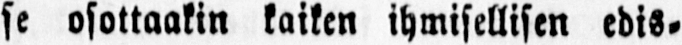se osottaakin kaiken ihmeellisen edis-
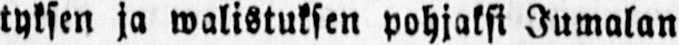tyksen ja walistuksen pohjaksi Jumalan
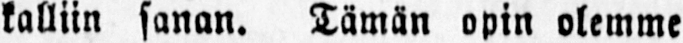kalliin sanan. Tämän opin olemme
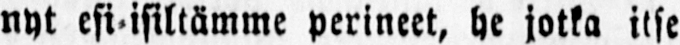nyt esi-isiltämme perineet, he jotka itse
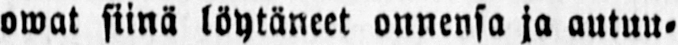owat siinä löytäneet onnensa ja autuu-
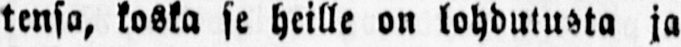tensa, koska se heille on lohdutusta ja
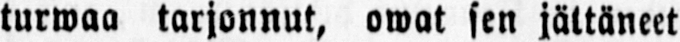turwaa tarjonnut, owat sen jättäneet
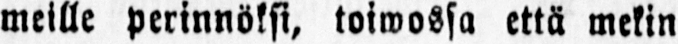meille perinnöksi, toiwossa että mekin
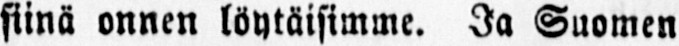siinä onnen löytäisimme. Ja Suomen
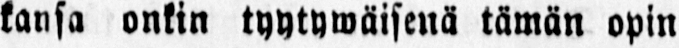kansa onkin tyytywäisenä tämän opin
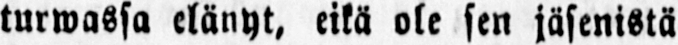turwassa elänyt, eikä ole sen jäsenistä
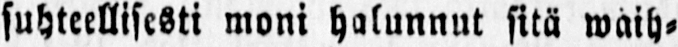suhteellisesti moni halunnut sitä waih-
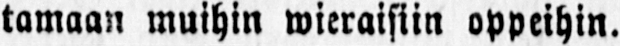tamaan muihin wieraisiin oppeihin.
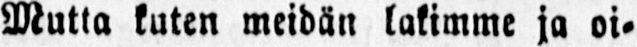Mutta kuten meidän kakimme ja oi-
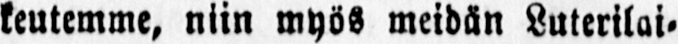keutemme, niin myös meidän Luterilai-
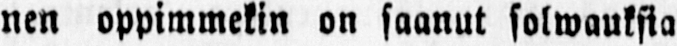nen oppimmekin on saanut solwauksia
